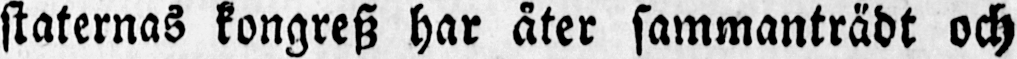staternas kongresz har åter sammanträdt och
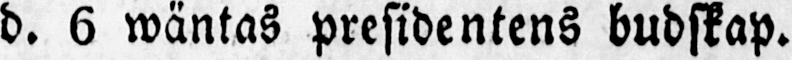d. 6 wäntas presidentens budskap.
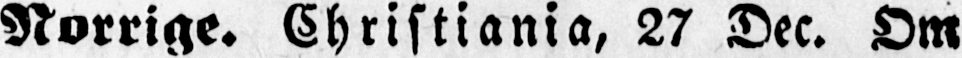Norrige. Christiania, 27 Dec. Om
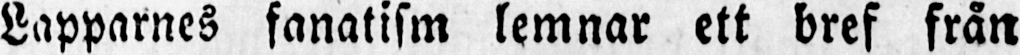Lapparnes fanatism lemnar ett bref från
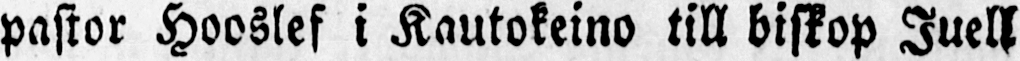pastor Hooslef i Kautokeino till biskop Juell
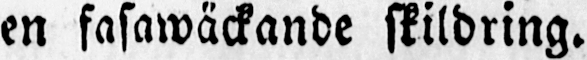en fasawäckande skildring.
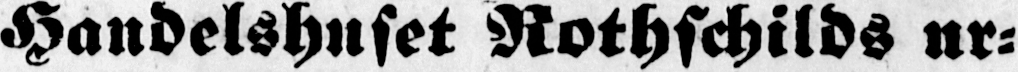Handelshuset Rothschilds ur-
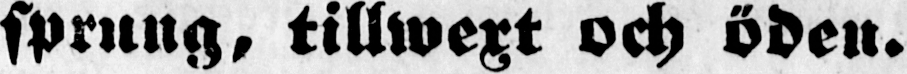sprung, tillwext och öden.
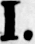I.
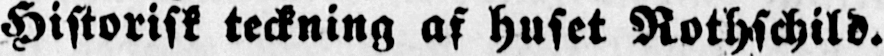Historisk teckning af huset Rothschild.
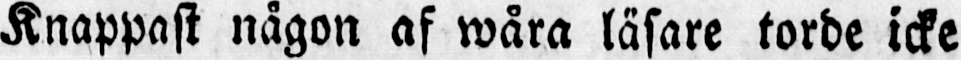Knappast någon af wåra läsare torde icke
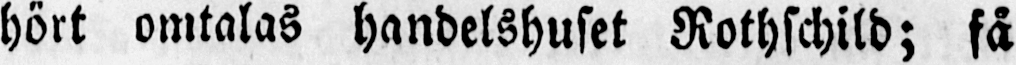hört omtalas handelshuset Rothschild; få
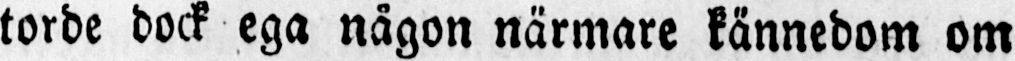torde dock ega någon närmare kännedom om
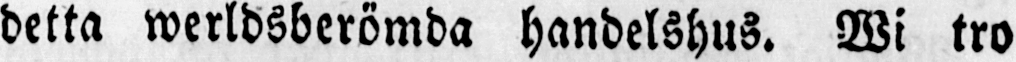detta werldsberömda handelshus. Wi tro
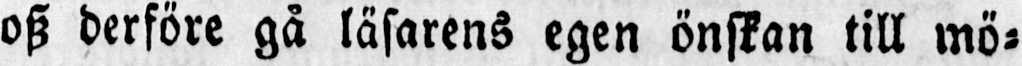osz derföre gå läsarens egen önskan till mö-
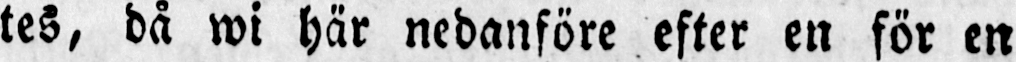tes, då wi här nedanföre efter en för en
